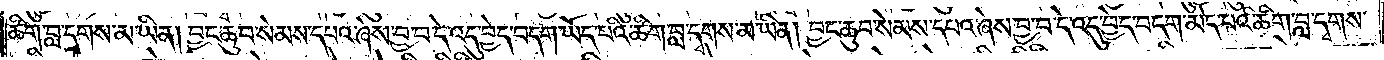ཚིག་བླ་དྭགས་མ་ཡིན། བྱང་ཆུབ་སེམས་དཔའ་ཞེས་བྱ་བ་དེ་འདུ་བྱེད་བདག་ཡོད་པའི་ཚིག་བླ་དྭགས་མ་ཡིན། བྱང་ཆུབ་སེམས་དཔའ་ཞེས་བྱ་བ་དེ་འདུ་བྱེད་བདག་མེད་པའི་ཚིག་བླ་དྭགས་
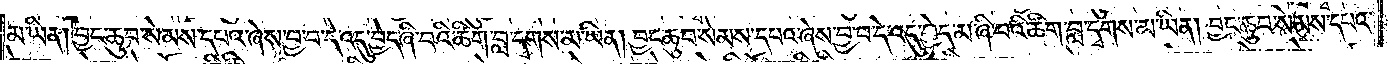མ་ཡིན། བྱང་ཆུབ་སེམས་དཔའ་ཞེས་བྱ་བ་དེ་འདུ་བྱེད་ཞི་བའི་ཚིག་བླ་དྭགས་མ་ཡིན། བྱང་ཆུབ་སེམས་དཔའ་ཞེས་བྱ་བ་དེ་འདུ་བྱེད་མ་ཞི་བའི་ཚིག་བླ་དྭགས་མ་ཡིན། བྱང་ཆུབ་སེམས་དཔའ་
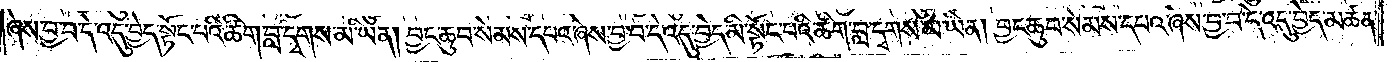ཞེས་བྱ་བ་དེ་འདུ་བྱེད་སྟོང་པའི་ཚིག་བླ་དྭགས་མ་ཡིན། བྱང་ཆུབ་སེམས་དཔའ་ཞེས་བྱ་བ་དེ་འདུ་བྱེད་མི་སྟོང་པའི་ཚིག་བླ་དྭགས་མ་ཡིན། བྱང་ཆུབ་སེམས་དཔའ་ཞེས་བྱ་བ་དེ་འདུ་བྱེད་མཚན་
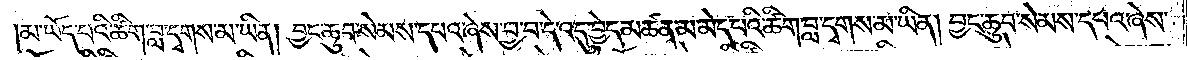མ་ཡོད་པའི་ཚིག་བླ་དྭགས་མ་ཡིན། བྱང་ཆུབ་སེམས་དཔའ་ཞེས་བྱ་བ་དེ་འདུ་བྱེད་མཚན་མ་མེད་པའི་ཚིག་བླ་དྭགས་མ་ཡིན། བྱང་ཆུབ་སེམས་དཔའ་ཞེས་
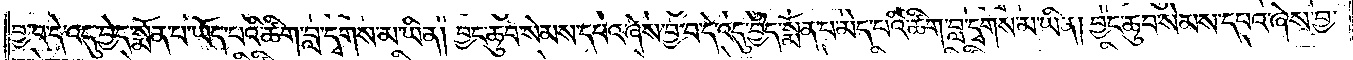བྱ་བ་དེ་འདུ་བྱེད་སྨོན་པ་ཡོད་པའི་ཚིག་བླ་དྭགས་མ་ཡིན། བྱང་ཆུབ་སེམས་དཔའ་ཞེས་བྱ་བ་དེ་འདུ་བྱེད་སྨོན་པ་མེད་པའི་ཚིག་བླ་དྭགས་མ་ཡིན། བྱང་ཆུབ་སེམས་དཔའ་ཞེས་བྱ་
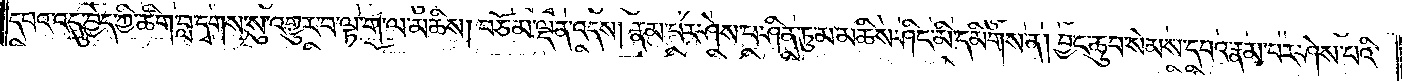དཔའ་འདུ་བྱེད་ཀྱི་ཚིག་བླ་དྭགས་སུ་འགྱུར་བ་ལྟ་ག་ལ་མཆིས། བཅོམ་ལྡན་འདས། རྣམ་པར་ཤེས་པ་ཤིན་ཏུ་མ་མཆིས་ཤིང་མི་དམིགས་ན། བྱང་ཆུབ་སེམས་དཔའ་རྣམ་པར་ཤེས་པའི་
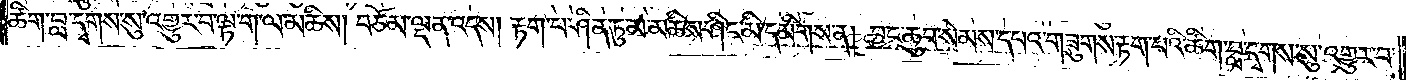ཚིག་བླ་དྭགས་སུ་འགྱུར་བ་ལྟ་ག་ལ་མཆིས། བཅོམ་ལྡན་འདས། རྟག་པ་ཤིན་ཏུ་མ་མཆིས་ཤིང་མི་དམིགས་ན། བྱང་ཆུབ་སེམས་དཔའ་གཟུགས་རྟག་པའི་ཚིག་བླ་དྭགས་སུ་འགྱུར་བ་
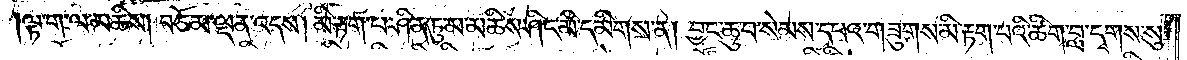ལྟ་ག་ལ་མཆིས། བཅོམ་ལྡན་འདས། མི་རྟག་པ་ཤིན་ཏུ་མ་མཆིས་ཤིང་མི་དམིགས་ན། བྱང་ཆུབ་སེམས་དཔའ་གཟུགས་མི་རྟག་པའི་ཚིག་བླ་དྭགས་སུ་
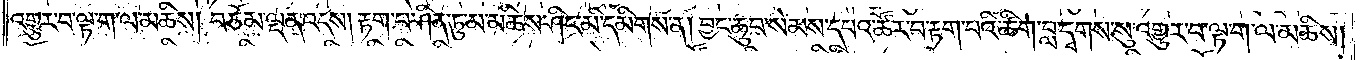འགྱུར་པ་ལྟ་ག་ལ་མཆིས། བཅོམ་ལྡན་འདས། རྟག་པ་ཤིན་ཏུ་མ་མཆིས་ཤིང་མི་དམིགས་ན། བྱང་ཆུབ་སེམས་དཔའ་ཚོར་བ་རྟག་པའི་ཚིག་བླ་དྭགས་སུ་འགྱུར་པ་ལྟ་ག་ལ་མཆིས།
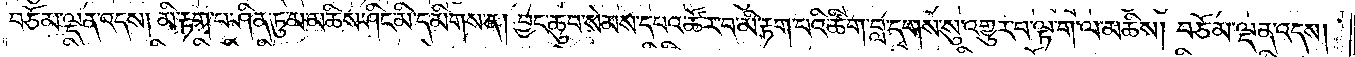བཅོམ་ལྡན་འདས། མི་རྟག་པ་ཤིན་ཏུ་མ་མཆིས་ཤིང་མི་དམིགས་ན། བྱང་ཆུབ་སེམས་དཔའ་ཚོར་བ་མི་རྟག་པའི་ཚིག་བླ་དྭགས་སུ་འགྱུར་པ་ལྟ་ག་ལ་མཆིས། བཅོམ་ལྡན་འདས།
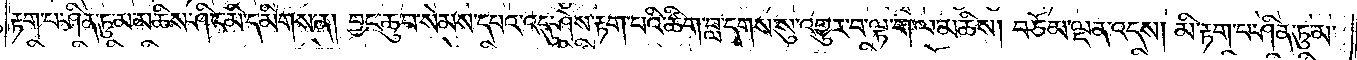རྟག་པ་ཤིན་ཏུ་མ་མཆིས་ཤིང་མི་དམིགས་ན། བྱང་ཆུབ་སེམས་དཔའ་འདུ་ཤེས་རྟག་པའི་ཚིག་བླ་དྭགས་སུ་འགྱུར་པ་ལྟ་ག་ལ་མཆིས། བཅོམ་ལྡན་འདས། མི་རྟག་པ་ཤིན་ཏུ་མ་
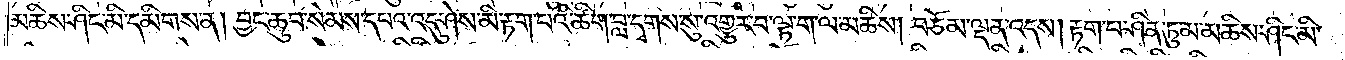མཆིས་ཤིང་མི་དམིགས་ན། བྱང་ཆུབ་སེམས་དཔའ་འདུ་ཤེས་མི་རྟག་པའི་ཚིག་བླ་དྭགས་སུ་འགྱུར་བ་ལྟ་ག་ལ་མཆིས། བཅོམ་ལྡན་འདས། རྟག་པ་ཤིན་ཏུ་མ་མཆིས་ཤིང་མི་
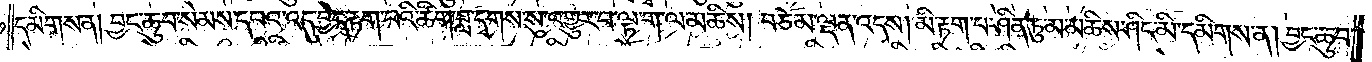དམིགས་ན། བྱང་ཆུབ་སེམས་དཔའ་འདུ་བྱེད་རྟག་པའི་ཚིག་བླ་དྭགས་སུ་འགྱུར་བ་ལྟ་ག་ལ་མཆིས། བཅོམ་ལྡན་འདས། མི་རྟག་པ་ཤིན་ཏུ་མ་མཆིས་ཤིང་མི་དམིགས་ན། བྱང་ཆུབ་
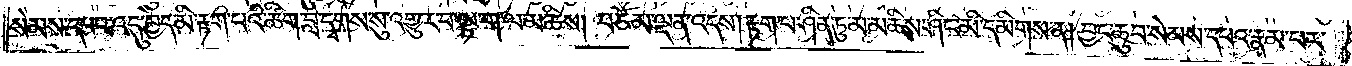སེམས་དཔའ་འདུ་བྱེད་མི་རྟག་པའི་ཚིག་བླ་དྭགས་སུ་འགྱུར་པ་ལྟ་ག་ལ་མཆིས། བཅོམ་ལྡན་འདས། རྟག་པ་ཤིན་ཏུ་མ་མཆིས་ཤིང་མི་དམིགས་ན། བྱང་ཆུབ་སེམས་དཔའ་རྣམ་པར་
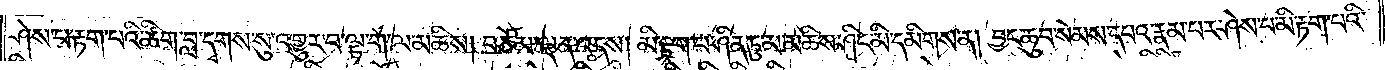ཤེས་པ་རྟག་པའི་ཚིག་བླ་དྭགས་སུ་འགྱུར་པ་ལྟ་ག་ལ་མཆིས། བཅོམ་ལྡན་འདས། མི་རྟག་པ་ཤིན་ཏུ་མ་མཆིས་ཤིང་མི་དམིགས་ན། བྱང་ཆུབ་སེམས་དཔའ་རྣམ་པར་ཤེས་པ་མི་རྟག་པའི་
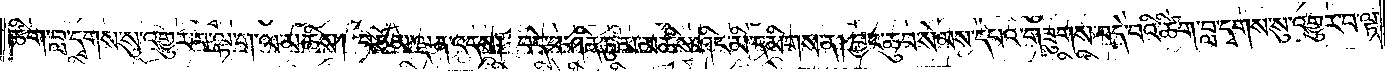ཚིག་བླ་དྭགས་སུ་འགྱུར་བ་ལྟ་ག་ལ་མཆིས། བཅོམ་ལྡན་འདས། བདེ་བར་ཤིན་ཏུ་མ་མཆིས་ཤིང་མི་དམིགས་ན། བྱང་ཆུབ་སེམས་དཔའ་གཟུགས་བདེ་བའི་ཚིག་བླ་དྭགས་སུ་འགྱུར་བ་ལྟ་
